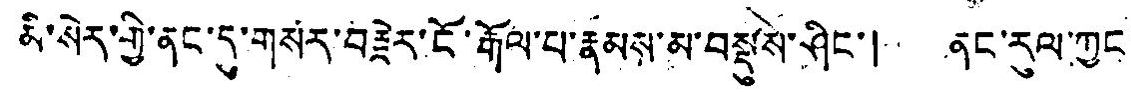མི་སེར་གྱི་ནང་དུ་གསར་བརྗེར་ངོ་རྒོལ་པ་རྣམས་མ་བསྡུས་ཤིང་། ནང་རུལ་ཀྱང་
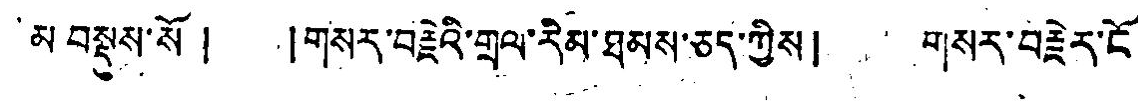མ་བསྡུས་སོ། །གསར་བརྗེའི་གྲལ་རིམ་ཐམས་ཅད་ཀྱིས། གསར་བརྗེར་ངོ་
